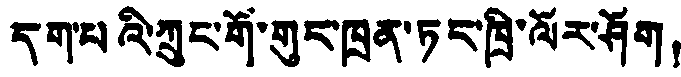དག་པའི་ཀྲུང་གོ་གུང་ཁྲན་ཏང་ཁྲི་ལོར་ཤོག！
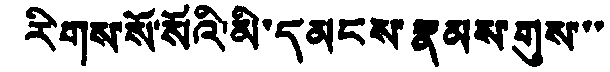རིགས་སོ་སོའི་མི་དམངས་རྣམས་གུས་་་
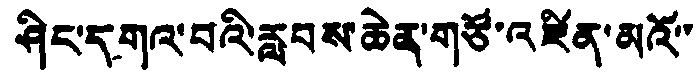ཤིང་དགའ་བའི་རླབས་ཆེན་གཙོ་འཛིན་མའོ་་
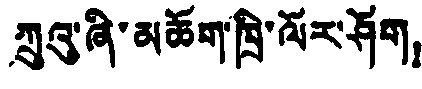ཀྲུའུ་ཞི་མཆོག་ཁྲི་ལོར་ཤོག！
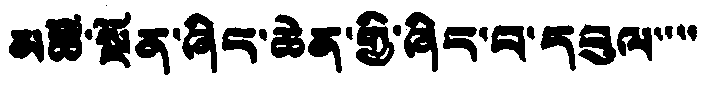མཚི་སྔོན་ཞིང་ཆེན་གྱི་ཞིང་བ་དབུལ་་་་
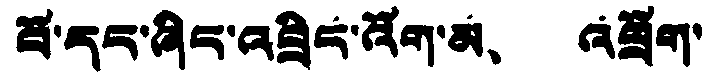བོ་དང་ཞིང་འབྲིད་འོག་མ、 འབྲོག་
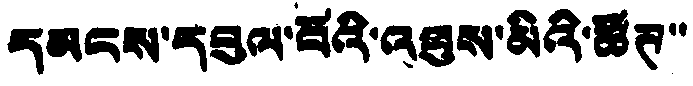དམངས་དབུལ་བོའི་འཐུས་མིའི་ཚོཊ་་
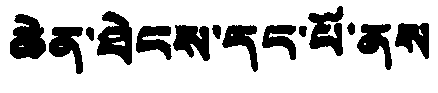ཆེན་ཐེངས་དང་པོ་ནས
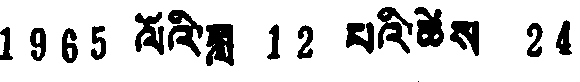1965 ལོའི་ཟླ 12 པའི་ཚེས 24
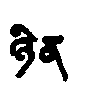ཉིན
